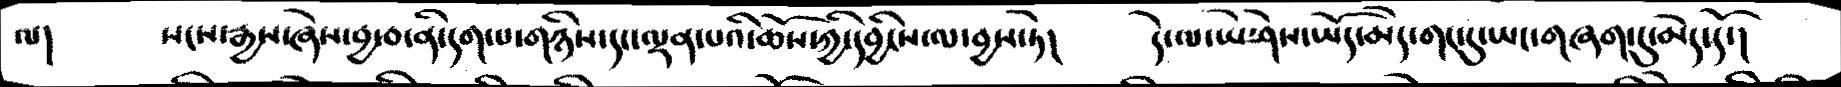ལ།   སངས་རྒྱས་ཞེས་བྱ་བ་ནི་དག་པ་གཉིས་དང་ལྡན་པའི་ཆོས་ཀྱི་དབྱིངས་ལ་བྱས་ཏེ།    དེ་ལ་ཡེ་ཤེས་ཡོད་མེད་གང་དུ་ཡང་གཞག་དུ་མེད་དོ་།
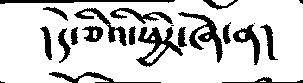།དེ་ཅིའི་ཕྱིར་ཞེ་ན།
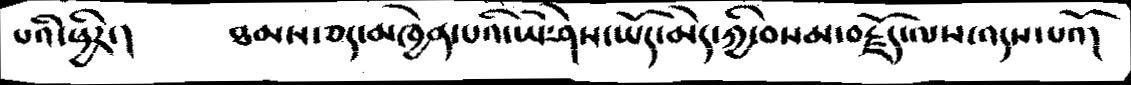པའི་ཕྱིར་།     ཐམས་ཅད་མཁྱེན་པའི་ཡེ་ཤེས་ཡོད་མེད་ཀྱི་བསམ་བརྗོད་ལས་འདས་པའོ།
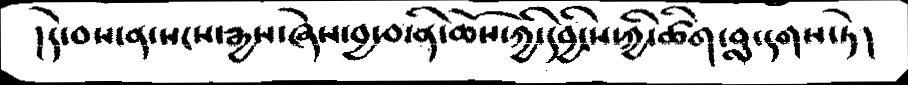། དེ་བས་ན་སངས་རྒྱས་ཞེས་བྱ་བ་ནི་ཆོས་ཀྱི་དབྱིངས་ཀྱི་ཚིག་བླ་དགས་ཏེ།
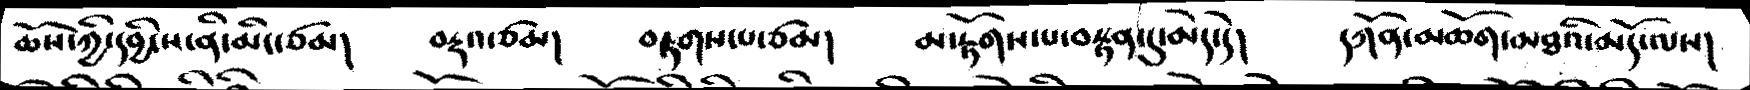ཆོས་ཀྱི་དབྱིངས་ནི་མིང་ཙམ།    བརྟའ་ཙམ།       བརྟགས་པ་ཙམ།    མ་རྟོགས་པ་བསྟན་དུ་མེད་དེ།      དཀོམ་མཆོག་མཐོའི་མདོ་ལས།
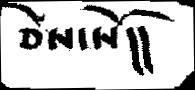ཅེས་སོ།།
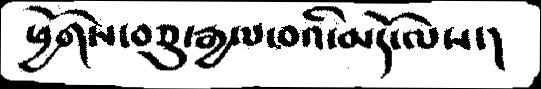ཕྱོགས་བཅུ་རྒྱལ་བའི་མདོ་ལས་།
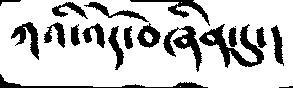ཀའི་འོད་བཞིན་དུ་།
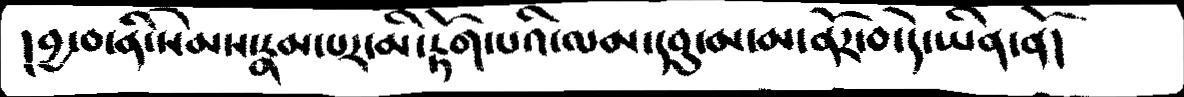།བྱ་བ་ནི་སེམས་རྣམ་པར་མི་རྟོག་པའི་ལམ་དབུ་མ་མ་ནོར་བ་དེ་ཡིན་ནོ།
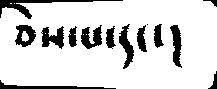ཅེས་པ་དང་།
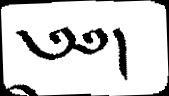༄༅།
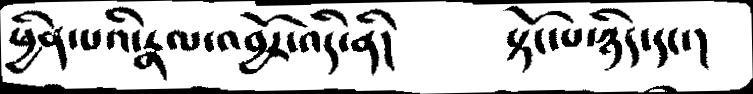ཕྱིན་པའི་རྣལ་འབྱོར་འདི་ནི།     སྟོང་པ་ཉིད་དང་།
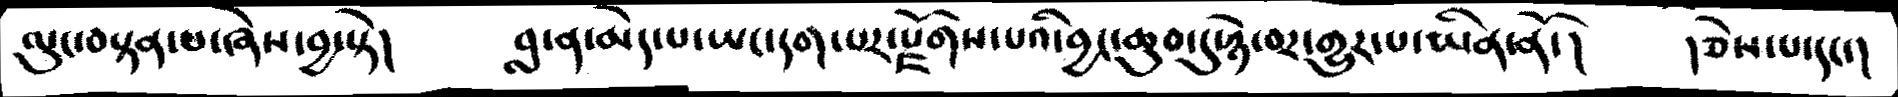ལུང་བསྟན་པ་ཞེས་བྱ་སྟེ།     བླ་ན་མེད་པ་ཡང་དག་པར་སྫོགས་པའི་བྱང་ཆུབ་དུ་ཉེ་བར་གྱུར་པ་ཡིན་ནོ་།   །ཅེས་པ་དང་།
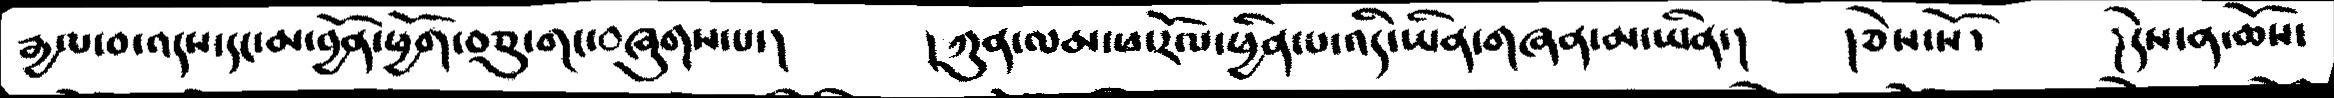རྒྱལ་བ་འདས་དང་མ་བྱོན་ཕྱོག་བཅུ་བཞུགས་པ་།      །ཀུན་ལམ་ཕ་རོལ་ཕྱིན་པ་འདི་ཡིན་གཞན་མ་ཡིན་།    །ཅེས་སོ་།  །དེས་ན་ཆོས་
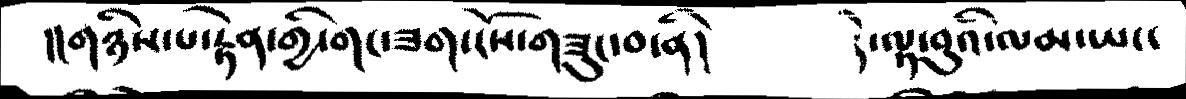།།གཉིས་པ་རྟེན་གྱི་གང་ཟག་ངོས་གཟུང་བ་ནི།    དེ་ལྟ་བུའི་ལམ་ཡང་
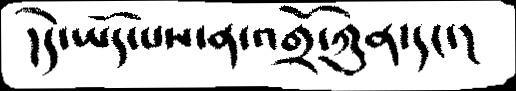།དེ་ཡོད་པས་ན་འགྲོ་ཀུན་དང་།
